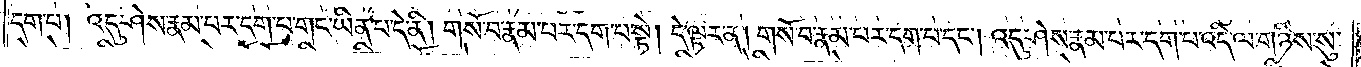དག་པ། འདུ་ཤེས་རྣམ་པར་དག་པ་གང་ཡིན་པ་དེ་ནི། གསོ་བ་རྣམ་པར་དག་པ་སྟེ། དེ་ལྟར་ན། གསོ་བ་རྣམ་པར་དག་པ་དང༌། འདུ་ཤེས་རྣམ་པར་དག་པ་འདི་ལ་གཉིས་སུ་
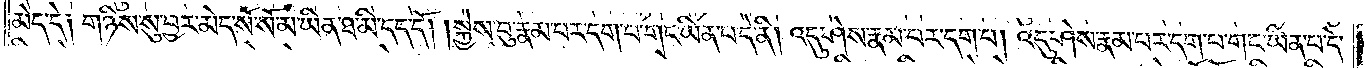མེད་དེ༑ གཉིས་སུ་བྱར་མེད་སོ་སོ་མ་ཡིན་ཐ་མི་དད་དོ། །སྐྱེས་བུ་རྣམ་པར་དག་པ་གང་ཡིན་པ་དེ་ནི། འདུ་ཤེས་རྣམ་པར་དག་པ། འདུ་ཤེས་རྣམ་པར་དག་པ་གང་ཡིན་པ་དེ་
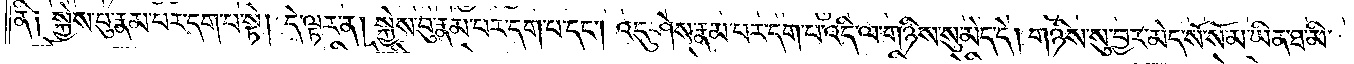ནི༑ སྐྱེས་བུ་རྣམ་པར་དག་པ་སྟེ། དེ་ལྟར་ན། སྐྱེས་བུ་རྣམ་པར་དག་པ་དང༌། འདུ་ཤེས་རྣམ་པར་དག་པ་འདི་ལ་གཉིས་སུ་མེད་དེ། གཉིས་སུ་བྱར་མེད་སོ་སོ་མ་ཡིན་ཐ་མི་
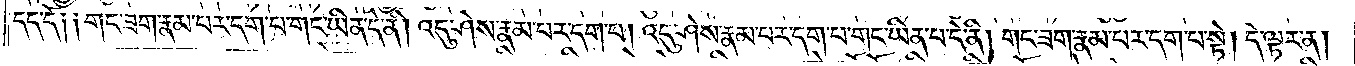དད་དོ༑ ༑གང་ཟག་རྣམ་པར་དག་པ་གང་ཡིན་པ་དེ་ནི། འདུ་ཤེས་རྣམ་པར་དག་པ། འདུ་ཤེས་རྣམ་པར་དག་པ་གང་ཡིན་པ་དེ་ནི། གང་ཟག་རྣམ་པར་དག་པ་སྟེ། དེ་ལྟར་ན།
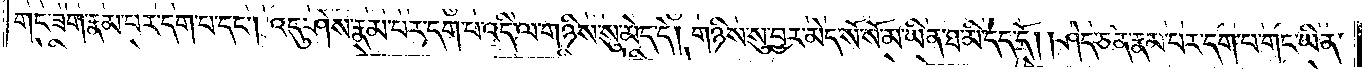གང་ཟག་རྣམ་པར་དག་པ་དང༌། འདུ་ཤེས་རྣམ་པར་དག་པ་འདི་ལ་གཉིས་སུ་མེད་དེ། གཉིས་སུ་བྱར་མེད་སོ་སོ་མ་ཡིན་ཐ་མི་དད་དོ། །ཤེད་ཅན་རྣམ་པར་དག་པ་གང་ཡིན་
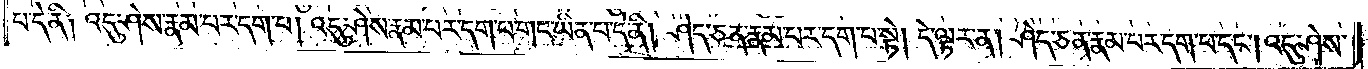པ་དེ་ནི༑ འདུ་ཤེས་རྣམ་པར་དག་པ། འདུ་ཤེས་རྣམ་པར་དག་པ་གང་ཡིན་པ་དེ་ནི། ཤེད་ཅན་རྣམ་པར་དག་པ་སྟེ། དེ་ལྟར་ན། ཤེད་ཅན་རྣམ་པར་དག་པ་དང༌། འདུ་ཤེས་
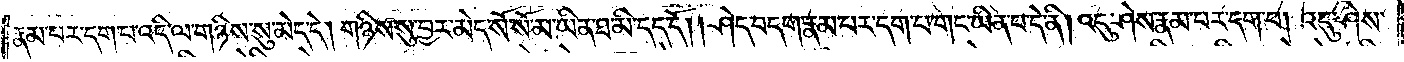རྣམ་པར་དག་པ་འདི་ལ་གཉིས་སུ་མེད་དེ། གཉིས་སུ་བྱར་མེད་སོ་སོ་མ་ཡིན་ཐ་མི་དད་དོ། །ཤེད་བདག་རྣམ་པར་དག་པ་གང་ཡིན་པ་དེ་ནི། འདུ་ཤེས་རྣམ་པར་དག་པ། འདུ་ཤེས་
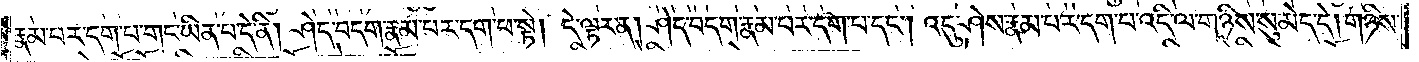རྣམ་པར་དག་པ་གང་ཡིན་པ་དེ་ནི། ཤེད་བདག་རྣམ་པར་དག་པ་སྟེ། དེ་ལྟར་ན། ཤེད་བདག་རྣམ་པར་དག་པ་དང༌། འདུ་ཤེས་རྣམ་པར་དག་པ་འདི་ལ་གཉིས་སུ་མེད་དེ། གཉིས་
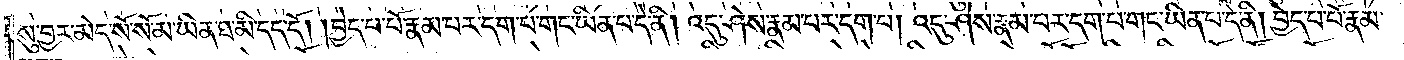སུ་བྱར་མེད་སོ་སོ་མ་ཡིན་ཐ་མི་དད་དོ། །བྱེད་པ་པོ་རྣམ་པར་དག་པ་གང་ཡིན་པ་དེ་ནི། འདུ་ཤེས་རྣམ་པར་དག་པ། འདུ་ཤེས་རྣམ་པར་དག་པ་གང་ཡིན་པ་དེ་ནི། བྱེད་པ་པོ་རྣམ་
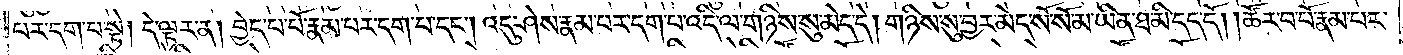པར་དག་པ་སྟེ། དེ་ལྟར་ན། བྱེད་པ་པོ་རྣམ་པར་དག་པ་དང༌། འདུ་ཤེས་རྣམ་པར་དག་པ་འདི་ལ་གཉིས་སུ་མེད་དེ། གཉིས་སུ་བྱར་མེད་སོ་སོ་མ་ཡིན་ཐ་མི་དད་དོ། །ཚོར་བ་པོ་རྣམ་པར་
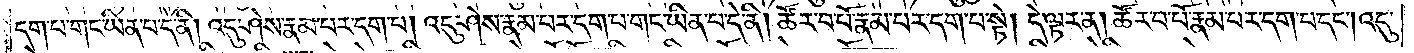དག་པ་གང་ཡིན་པ་དེ་ནི། འདུ་ཤེས་རྣམ་པར་དག་པ། འདུ་ཤེས་རྣམ་པར་དག་པ་གང་ཡིན་པ་དེ་ནི། ཚོར་བ་པོ་རྣམ་པར་དག་པ་སྟེ། དེ་ལྟར་ན། ཚོར་བ་པོ་རྣམ་པར་དག་པ་དང༌། འདུ་
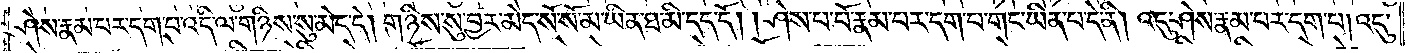ཤེས་རྣམ་པར་དག་པ་འདི་ལ་གཉིས་སུ་མེད་དེ། གཉིས་སུ་བྱར་མེད་སོ་སོ་མ་ཡིན་ཐ་མི་དད་དོ། །ཤེས་པ་པོ་རྣམ་པར་དག་པ་གང་ཡིན་པ་དེ་ནི། འདུ་ཤེས་རྣམ་པར་དག་པ། འདུ་
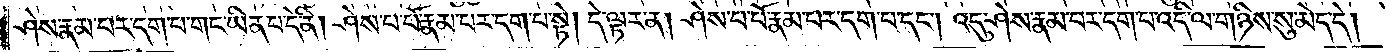ཤེས་རྣམ་པར་དག་པ་གང་ཡིན་པ་དེ་ནི། ཤེས་པ་པོ་རྣམ་པར་དག་པ་སྟེ། དེ་ལྟར་ན། ཤེས་པ་པོ་རྣམ་པར་དག་པ་དང༌། འདུ་ཤེས་རྣམ་པར་དག་པ་འདི་ལ་གཉིས་སུ་མེད་དེ།
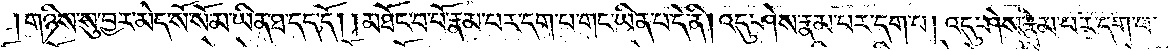གཉིས་སུ་བྱར་མེད་སོ་སོ་མ་ཡིན་ཐ་མི་དད་དོ། །མཐོང་བ་པོ་རྣམ་པར་དག་པ་གང་ཡིན་པ་དེ་ནི། འདུ་ཤེས་རྣམ་པར་དག་པ། འདུ་ཤེས་རྣམ་པར་དག་པ་
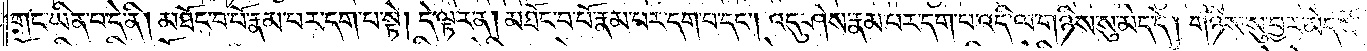གང་ཡིན་པ་དེ་ནི། མཐོང་བ་པོ་རྣམ་པར་དག་པ་སྟེ། དེ་ལྟར་ན། མཐོང་བ་པོ་རྣམ་པར་དག་པ་དང༌། འདུ་ཤེས་རྣམ་པར་དག་པ་འདི་ལ་གཉིས་སུ་མེད་དེ། གཉིས་སུ་བྱར་མེད་སོ་
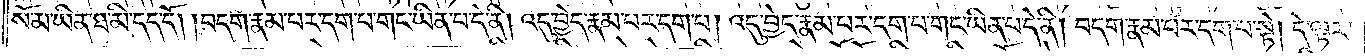སོ་མ་ཡིན་ཐ་མི་དད་དོ། །བདག་རྣམ་པར་དག་པ་གང་ཡིན་པ་དེ་ནི། འདུ་བྱེད་རྣམ་པར་དག་པ། འདུ་བྱེད་རྣམ་པར་དག་པ་གང་ཡིན་པ་དེ་ནི། བདག་རྣམ་པར་དག་པ་སྟེ། དེ་ལྟར་
